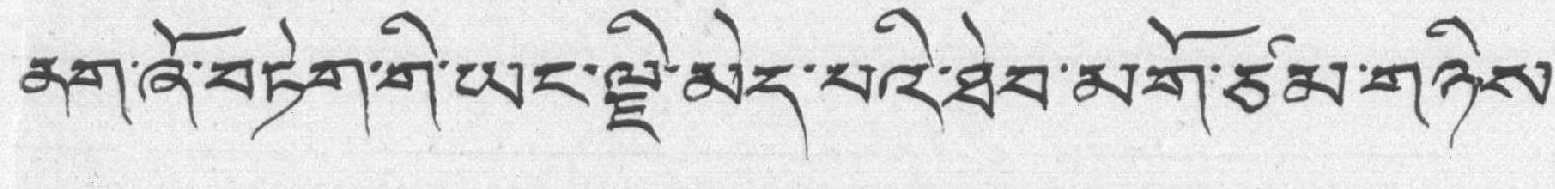ནག་ཞོ་བཏེག་གི་ཡང་ལྗི་མེད་པའི་ཐེབ་མགོ་ཙམ་གཉིས་
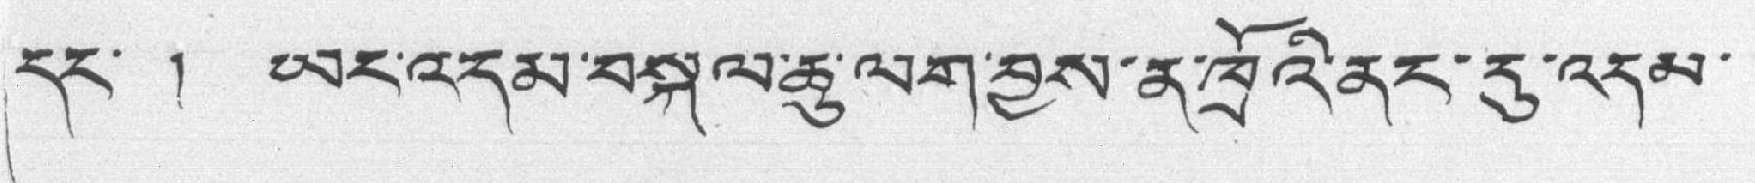དང་ ། ཡང་འདམ་བསྐལ་ཆུ་ལག་བྱས་ན་ཁྲོའི་ནང་དུ་འདམ་
